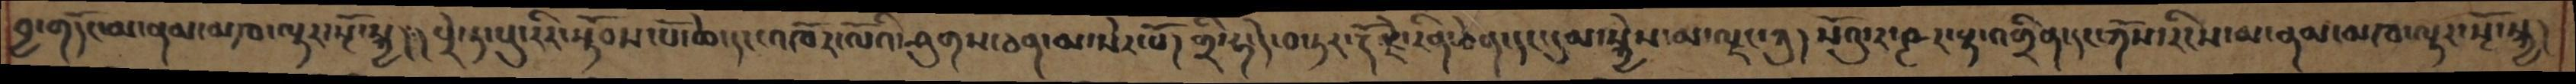བྱ་གདོང་མ་ནམ་མཁ་ལྟར་སྔོ་སྐྱ།༴། པྲེ་ཏ་པུར་རིར་སྟོབས་པོ་ཆེ་དང་འཁོར་ལོའི་ཤུགས་ཅན་མ་སེར་པོ། གྲི་ཧ་དེ་བ་ཏར་རྡོ་རྗེ་རིན་ཆེན་དང་དུམ་སྐྱེས་མ་ལྗང་ཀུ །སོའུ་ར་ཥྜར་རྟ་འགྲིན་དང་ཀོས་རིངས་མ་ནམ་མཁ་ལྟར་སྔོ་སྐྱ།
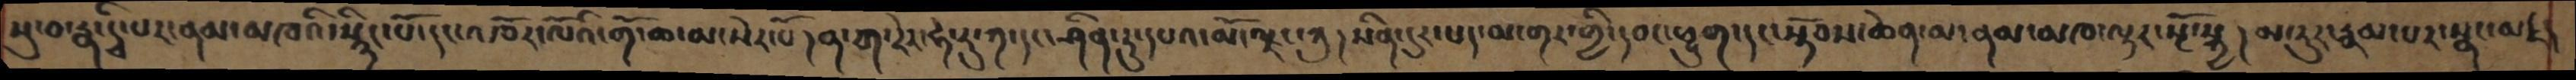སུ་བ་རྣ་དྭི་པར་ནམ་མཁའི་སྙིང་པོ་དང་འཁོར་ལོའི་གོ་ཆ་མ་སེར་པོ། ན་ག་རེར་ཧེ་རུ་ཀ་དང་ཤིན་ཏུ་དཔའ་མོ་ལྗང་ཀུ། སིན་དུར་པད་མ་གར་གྱི་དབང་ཕྱུག་དང་སྟོབས་ཆེན་མ་ནམ་མཁ་ལྟར་སྔོ་སྐྱ། མ་རུར་རྣམ་པར་སྣང་མཛད
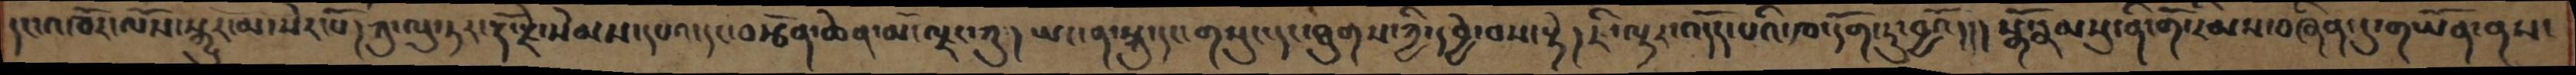དང་འཁོར་ལོས་སྐྱུར་མ་སེར་པོ། ཀུ་ལུ་ཏར་རྡོ་རྗེ་སེམས་དཔའ་དང་བརྩོན་ཆེན་མོ་ལྗང་ཀུ། ཡང་ན་སྐུ་དང་གསུང་དང་ཐུགས་ཀྱི་དབྱེ་བས་སྟེ། ཇི་ལྟར་འདོད་པའི་ཁ་དོག་ཏུ་བྱའོ།།། སྒོ་རྣམསུ་ནི་གོ་རིམས་བཞིན་དུ་གཡོན་ནས་
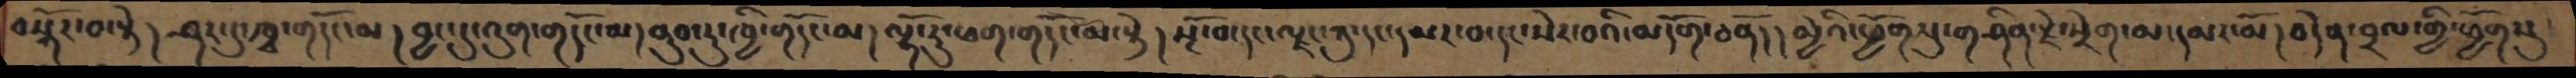བསྐོར་བ་སྟེ ། ཤར་དུ་ཁྭ་གདོང་མ། བྱང་དུ་འུག་གདོང་མ།ནུབ་ཏུ་ཁྱི་གདོང་མ། ལྷོ་རུ་ཕག་གདོང་མ་སྟེ ། སྔོ་བ་དང་ལྗང་ཀུ་དང་དམར་བ་དང་སེར་བའི་མདོག་ཅནོ། ། མྱེའི་ཕྱོགསུ་གཤིན་རྗེ་སྲེག་མ་དམར་མོ ། བདེན་བྲལ་གྱི་ཕྱོགསུ
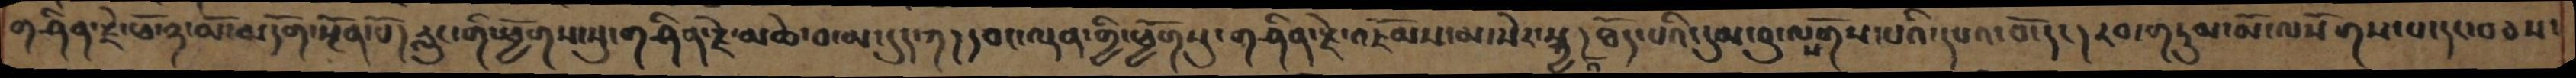གཤིན་རྗེ་ཕོ་ཉ་མོ་མདོག་སྔོན་པོ།རླུང་གི་ཕྱོགས་སུ་གཤིན་རྗེ་མཆེ་བ་མ་དུད་ཀ།དབང་ལྡན་གྱི་ཕྱོགསུ་གཤིན་རྗེ་འཇོམས་མ་སེར་སྐྱ།ཐོད་པའི་དུམ་བུ་ལསོགས་པའི་དཔའ་བོ་དང།རབ་གཏུམ་མོ་ལསོགས་པ་དང་བཅས་
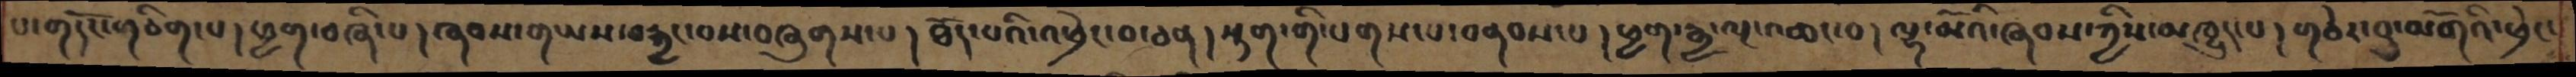པ་གདོང་གཅིག་པ། ཕྱག་བཞི་པ།ཞབས་གཡས་བརྐྱང་བས་བཞུགས་པ །ཐོད་པའི་འཕྲེང་བ་ཅན །སྟག་གི་པགས་པ་བནབས་པ །ཕྱག་རྒྱ་ལྔ་འཆང་བ །ལྷ་མོའི་ཞབས་ཀྱིས་མཁྱུད་པ །གཅེར་བུ་མགོའི་ཕྲེང་
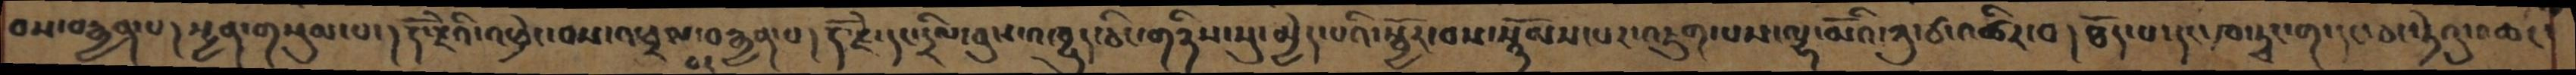བས་བརྒྱན་པ། སྤྱན་གསུམ་པ། རྡོ་རྗེའི་འཕྲེང་བས་འཕྲལ་བར་བརྒྱན་པ། རྡོ་རྗེ་དང་དྲིལ་བུས་འཁྱུད་ཅིང་གཉིས་སུ་མྱེད་པའི་སྦྱོར་བས་སྙོམས་པར་འཇུག་པས་ལྷ་མོའི་ཀུ་ཙ་འཚིར་བ། ཐོད་པ་དང་ཁ་ཏྭང་ག་དང་ཅང་ཏེའུ་འཆང་
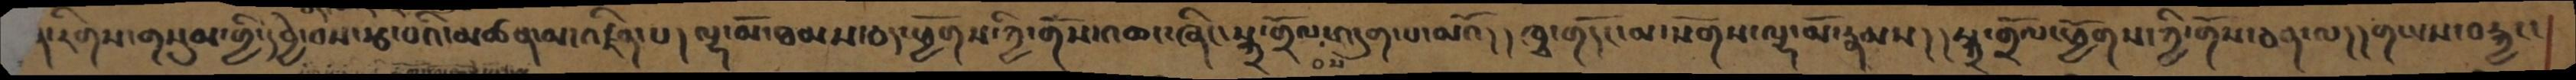་རིགས་གསུམ་གྱི་དབྱེ་བའི་རྩ་བའི་མཚན་མ་འཛིན་པ། ལྷ་མོ་ཐམས་ཅད་ཕྱོགས་ཀྱི་གོས་འཆང་ཞིང་སྐྲ་གྲོལ་བས་འདུག་པ་མའོ། །ཁྭ་གདོང་མ་སོགས་ལྷ་མོ་རྣམས། །སྐྲ་གྲོལ་ཕྱོགས་ཀྱི་གོས་ཅན་ལ། །གཡས་བརྐྱང་
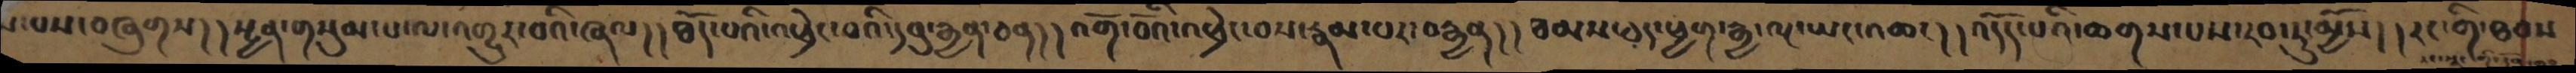་པས་བཞུགས། །སྤྱན་གསུམ་པ་ལ་འགྱུར་བའི་ཞལ། །ཐོད་པའི་འཕྲེང་བའི་དབུ་རྒྱན་ཅན། །འགོ་བོའི་འཕྲེང་བས་རྣམ་པར་བརྒྱན། །ཐམས་ཅད་ཕྱག་རྒྱ་ལྔ་ཡང་འཆང། །འདོད་པའི་ཆགས་པས་རབ་ཏུ་མྱོས། །རང་གི་ཐབས
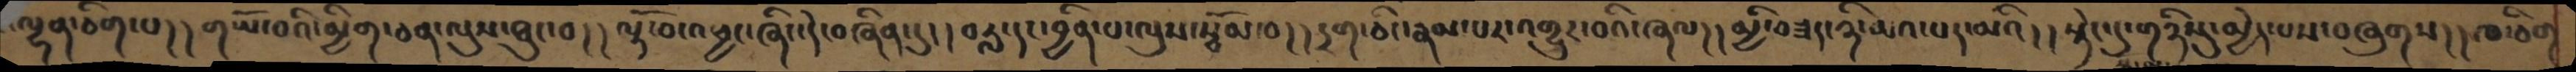ལྷན་ཅིག་པ། །གཡོ་བའི་མྱིག་ཅན་ལུས་ཐུང་བ། །ལྟོ་བ་འཕྱང་ཞིང་དེ་བཞིན་དུ། །བརླ་དང་བྱིན་པ་ལུས་སྦོམ་པ། །དྲག་ཅིང་རྣམ་པར་འགྱུར་བའི་ཞལ། །མྱི་བཟད་ཉི་མའ་པད་མའི། །སྟེང་དུ་གཉིསུ་མྱེད་པས་བཞུགས། །ཁ་ཅིག
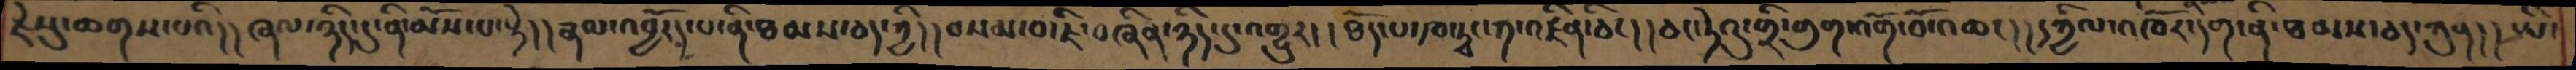རྗེསུ་ཆགས་པའི། །ཞལ་ཉིད་དུ་ནི་མོས་པ་སྟེ། །རྣལ་འབྱོརད་པ་ནི་ཐམས་ཅད་ཀྱི། །བསམ་པ་ཇི་བཞིན་ཉིད་དུ་འགྱུར། ། ཐོད་པ་ཁ་ཊྭང་ཀ་འཛིན་ཅིང། །ཅང་ཏེའུ་གྲི་གུག་འགོ་བོ་འཆང། །དཀྱིལ་འཁོར་དག་ནི་ཐམས་ཅད་ཀུན། ། ཡི་
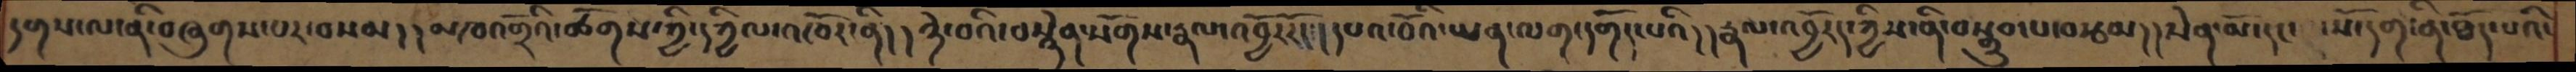དགས་ལ་ནི་བཞུགས་པར་བསམ། །མཁའགྲོའི་ཚོགས་ཀྱི་དཀྱིལ་འཁོར་ནི་། །ཉེ་བའི་བསྙེན་སོགས་རྣལ་འབྱོར་རོ། །དཔའ་བོའི་ཡན་ལག་དགོད་པའི། །རྣལ་འབྱོརད་ཀྱིས་ནི་བསྒྲུབ་པ་བརྩམ། །སེན་མོ་དང་ སོ་དག་ནི་ཐོད་པའི་
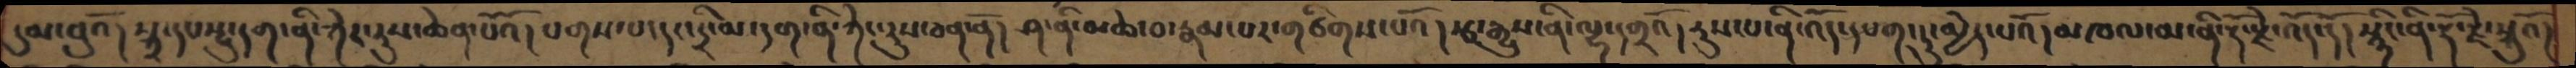དུམ་བུའོ། སྐྲ་དང་སྤུ་དག་ནི་ཀེང་རུས་ཆེན་པོའོ། པགས་པ་དང་དྲི་མ་དག་ནི་ཀེང་རུས་ཅན་ནོ།  ཤ་ནི་མཆེ་བ་རྣམ་པར་གཙིགས་པའོ། རྩ་རྒྱུས་ནི་ལྷ་དགྲའོ། རུས་པ་ནི་འོད་དཔག་ཏུ་མྱེད་པའོ། མཁལ་མ་ནི་རྡོ་རྗེ་འོད་དོ། སྙིང་ནི་རྡོ་རྗེ་སྐུའོ།
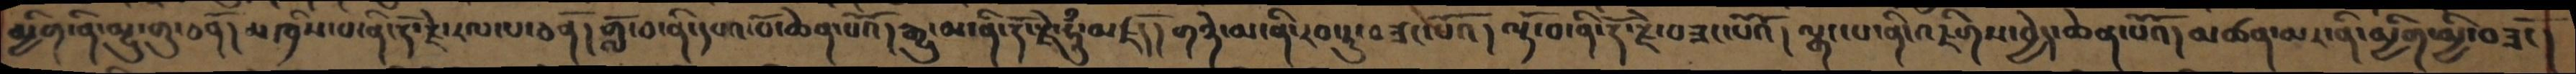མྱིག་ནི་མྱུ་གུ་ཅནོ། མཁྲིས་པ་ནི་རྡོ་རྗེ་རལ་པ་ཅནོ། གློ་བ་ནི་དཔའ་བོ་ཆེན་པོའོ། རྒྱུ་མ་ནི་རྡོ་རྗེ་ཧཱུྃ་མཛདོ། གཉེ་མ་ནི་རབ་ཏུ་བཟང་པོའོ། ལྟོ་བ་ནི་རྡོ་རྗེ་བཟང་པོའོ། ལྒང་པ་ནི་འཇིགས་བྱེད་ཆེན་པོའོ། མཚན་མར་ནི་མྱིག་མྱི་བཟངོ།
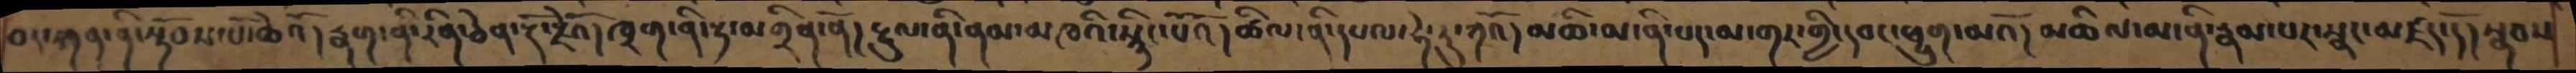བར་ཀན་ནི་སྟོབས་པོ་ཆེའོ། རྣག་ནི་རིན་ཅེན་རྡོ་རྗེའོ། ཁྲག་ནི་རྟ་མགྲིན་ནོ། རྡུལ་ནི་ནམ་མཁའི་སྙིང་པོའོ། ཚིལ་ནི་དཔལ་ཧེ་རུ་ཀའོ། མཆི་མ་ནི་པད་མ་གར་གྱི་དབང་ཕྱུག་མའོ། མཆིལ་མ་ནི་རྣམ་པར་སྣང་མཛད་དོ། སྣབས
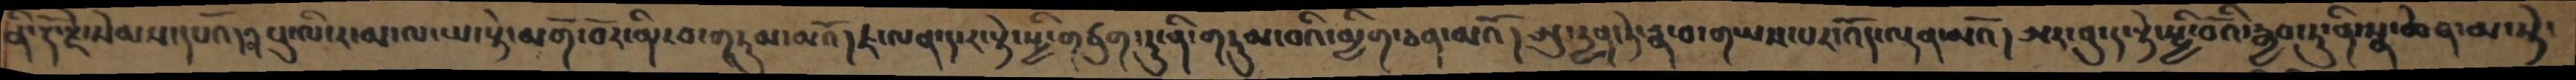ནི་རྡོ་རྗེ་སེམས་དཔའོ།༢ པུ་ལི་ར་མ་ལ་ཡ་སྟེ་མགོ་བོར་ནི་བ་གཏུམ་མའོ། ཛ་ལན་ད་ར་སྟེ་སྤྱི་གཙུག་དུ་ནི་གཏུམ་བའི་མྱིག་ཅན་མའོ།  ཨུ་དྱན་ཏེ་རྣ་བ་གཡས་པར་འོད་ལྡན་མའོ། ཨར་བུ་ད་སྟེ་སྤྱི་བོའི་རྒྱབ་ཏུ་ནི་སྣ་ཆེན་མ་སྟེ་
